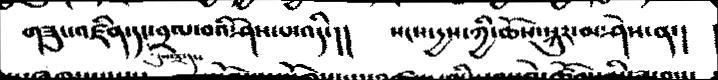གཟུང་འཛིན་དང་བྲལ་བའི་ཤེས་པ་འདི་།།    སངས་དྱས་ཀྱི་ཆོས་སྐུར་མ་ཤེས་ན་།
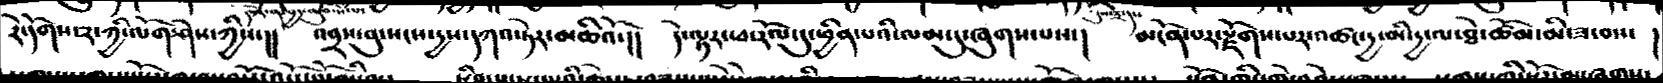རེ་དོགས་༢་ཀྱི་ལོགས་ཤེས་ཀྱིས་།།  འབྲས་བུ་སངས་དྱས་དཀའ་ཏེར་མཆིའོ་།།  ད་ལྟར་ཕ་རོལ་དུ་ཕྱིན་པའི་ལམ་དུ་ཞུགས་པས་།   མངོན་པར་རྫོགས་པར་འཚང་དྱ་མ་དྱ་ལ་ཐེ་ཚོམ་མི་ཟ་བས་།
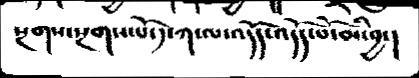སྔགས་སྔགས་པོ་༡་ཀ་ལ་འདོད་འདོད་པོ་མ་བྱ་།
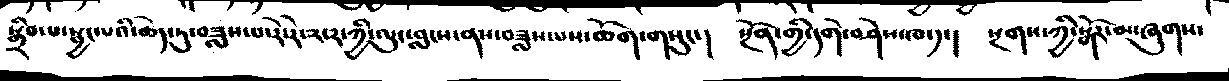སྒྲིབ་པ་སྦྱང་པའི་ཆེད་ཏུ་བཟླས་པ་རེ་ཏེ་༢་༢་ཌཀྱི་ལུང་བླངས་ནས་བཟླས་པས་ཆོག་གསུང་།    སྔོན་གྱི་དགེ་བཤེས་ཁ་༡་།   སྔགས་ཀྱི་སྒོར་མ་ཞུགས་
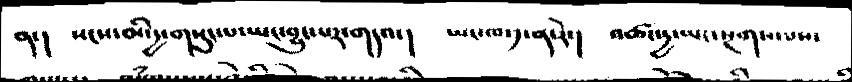ན་།   སངས་མི་དྱ་གསུང་པ་ཡང་བྱུང་པར་གདའ་།    ཡང་ཁ་༡་ན་རེ་།   འཚང་དྱ་ཡང་སྔགས་པས་
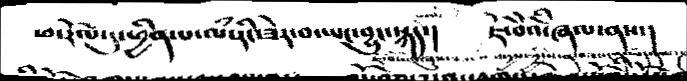ཕ་རོལ་དུ་ཕྱིན་པ་ལཾ་རིང་ཟེར་བ་ཡང་བྱུང་སྐད་།     ཇོ་བོའི་ཞལ་ནས་།
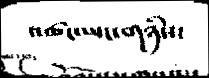འཚང་ཡང་གཉིས་
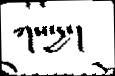ཀས་དྱ་།
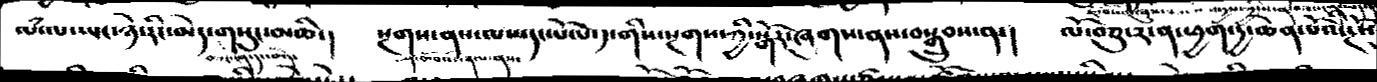ལཾ་ལ་ཡང་ཉེ་རིང་མེད་གསུང་མཆི་།  སྔགས་ནས་ལས་དང་པོ་པ་༡་གིས་སྔགས་ཀྱི་སྒོར་ཞུགས་ནས་བསྒྲུབས་ན་།   ལོ་བཅུ་༢་ན་ཕྱག་དྱ་ཆེན་པོའི་རྔོས་
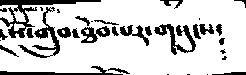རྔོས་གྲུབ་ཐོབ་པར་གསུངས་༴
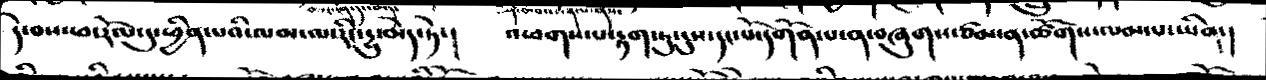དེ་བས་ཕ་རོལ་དུ་ཕྱིན་པའི་ལམ་ལ་རིང་ར་དྱུ་མེད་ཏེ་།   འཕགས་པ་རྟག་ཏུ་དུས་དང་པོ་་དགོན་པ་ན་བཞུགས་ཙམ་ན་ཚོགས་ལམ་པ་ཡིན་།
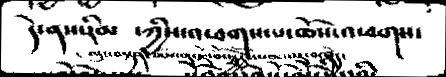དེ་ནས་རིམ  ་ཀྱིས་འཕགས་ཆོས་འཕགས་
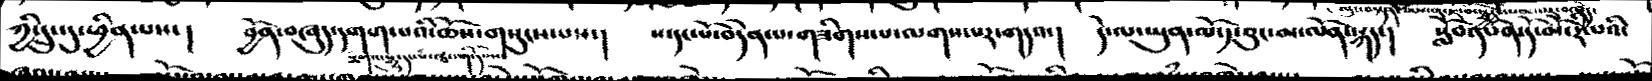ཀྱི་དྲུང་དུ་ཕྱིན་པས་།  བྱོན་བཞུད་དགག་པའི་ཆོས་གསུངས་པས་།  ས་དང་པོ་བདེན་པ་གཟིགས་པ་ལགས་པར་གདའ་།   དེ་ལ་ཡུན་ལོ་༡་བུང་མ་ལེན་སྐད་།  སློབ་དཔོན་དོ་མོ་རི་པའི་
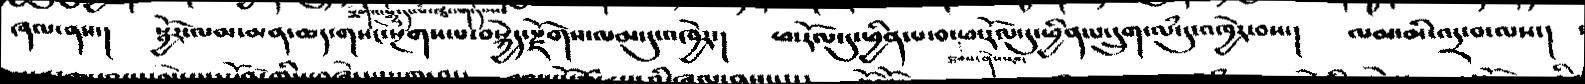ཞལ་ནས་།  སྦྱོར་ལམ་མན་ཆད་གསང་སྔགས་པ་བསྐྱེད་རྫོགས་ལམ་དུ་འཁྱེར་།  ཕ་རོལ་དུ་ཕྱིན་པ་བ་ཕ་རོལ་དུ་ཕྱིན་པ་དྲུག་ལཾ་དུ་འཁྱེར་བས་།   ལམ་མི་འདྲ་བ་ལས་།
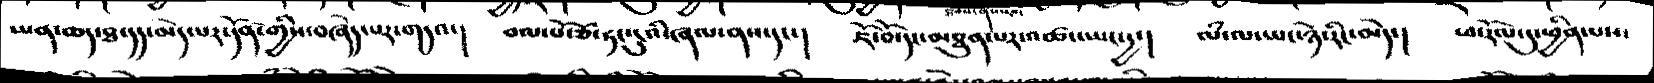ཡན་ཆད་ཐ་དད་མེད་པར་དོན་གྱིས་བཞེད་པར་གདའ་།  བལ་པོ་ཙ་ཧང་ངུའི་ཞལ་ནས་དང་།  ཇོ་བོ་དང་མཐུན་པར་འཚང་ཡང་དྱ་།   ལཾ་ལ་ཡང་ཉེ་རིང་མེད་།   ཕ་རོལ་དུ་ཕྱིན་པས་
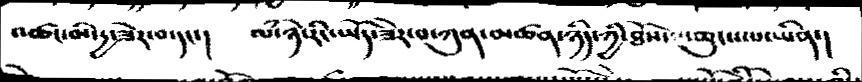འཚང་མི་དྱ་ཟེར་བ་དང་།   ལཾ་ཉེ་རིང་ཡོད་ཟེར་བ་ཀུན་མཚན་ཉིད་ཀྱི་ཐོས་པ་ཆུངས་པ་ཡིན་།
